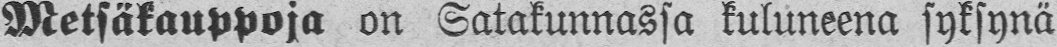Metsäkauppoja on Satakunnassa kuluneena syksynä
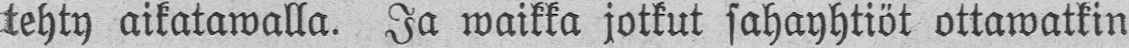tehty aikatawalla. Ja waikka jotkut sahayhtiöt ottawatkin
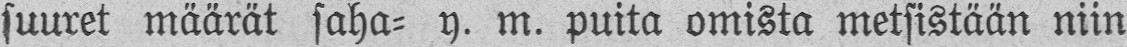suuret määrät saha- y. m. puita omista metsistään niin
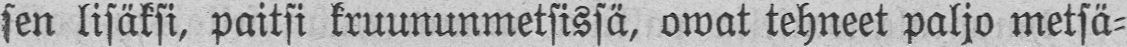sen lisäksi, paitsi kruununmetsissä, owat tehneet paljo metsä-
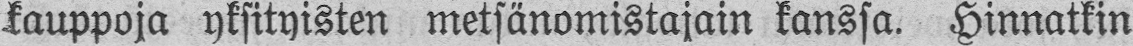kauppoja yksityisten metsänomistajain kanssa. Hinnatkin
